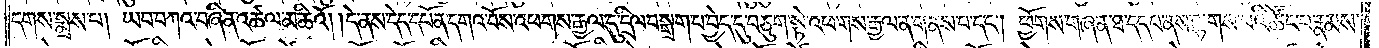དགས་སྨྲས་པ། ཡབ་བཀའ་བཞིན་འཚལ་མཆིའོ། །དེ་ནས་དེད་དཔོན་དགའ་བོས་འཕགས་རྒྱལ་དུ་དྲིལ་བསྒྲག་པ་བྱེད་དུ་བཅུག་སྟེ་འཕགས་རྒྱལ་ན་གནས་པ་དང༌། ཕྱོགས་གཞན་ཐ་དད་པ་ནས་ལྷགས་པའི་ཚོང་པ་རྣམས་
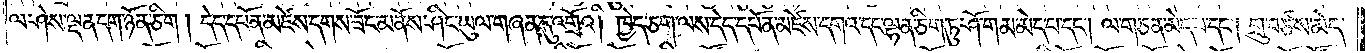ལ་ཤེས་ལྡན་དག་ཉོན་ཅིག །དེད་དཔོན་མཛེས་དགས་ཟོང་མནོས་ཤིང་ཡུལ་གཞན་དུ་འགྲོའི། ཁྱེད་ཅག་ལས་དེད་དཔོན་མཛེས་དགའ་དང་ལྷན་ཅིག་ཏུ་ཤོ་གམ་མེད་པ་དང༌། ལ་གཅན་མེད་པ་དང༌། གྲུ་བཙས་མེད་
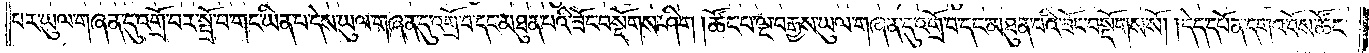པར་ཡུལ་གཞན་དུ་འགྲོ་བར་སྤྲོ་བ་གང་ཡིན་པ་དེས་ཡུལ་གཞན་དུ་འགྲོ་བ་དང་མཐུན་པའི་ཟོང་བསྡོགས་ཤིག །ཚོང་པ་ལྔ་བརྒྱས་ཡུལ་གཞན་དུ་འགྲོ་བ་དང་མཐུན་པའི་ཟོང་བསྡོགས་སོ། །དེད་དཔོན་དགའ་བོས་ཚོང་
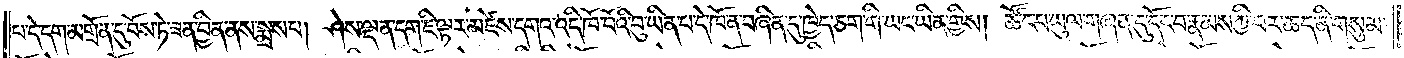པ་དེ་དག་མགྲོན་དུ་བོས་ཏེ་ཟན་བྱིན་ནས་སྨྲས་པ། ཤེས་ལྡན་དག་ཇི་ལྟར་མཛེས་དགའ་འདི་ཁོ་བོའི་བུ་ཡིན་པ་དེ་ཁོ་ན་བཞིན་དུ་ཁྱེད་ཅག་གི་ཡང་ཡིན་གྱིས། ཚོང་པ་ཡུལ་གཞན་དུ་དོང་བ་རྣམས་ཀྱི་བར་ཆད་ནི་གསུམ་
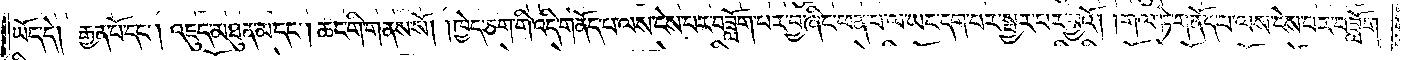ཡོད་དེ། རྒྱན་པོ་དང༌། འཇུད་མཐུན་མ་དང༌། ཆང་གི་གནས་སོ། །ཁྱེད་ཅག་གི་འདི་གནོད་པ་ལས་ངེས་པར་བཟློག་པར་བྱ་ཞིང་ཕན་པ་ལ་ཡང་དག་པར་སྦྱར་བར་བྱའོ། གལ་ཏེ་གནོད་པ་ལས་ངེས་པར་བཟློག་
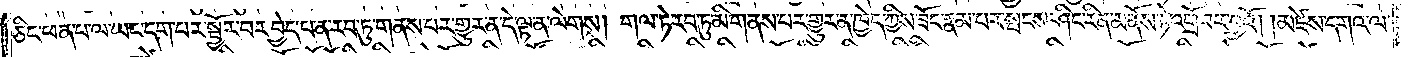ཅིང་ཕན་པ་ལ་ཡང་དག་པར་སྦྱོར་བར་བྱེད་པ་ན་རབ་ཏུ་གནས་པར་གྱུར་ན་དེ་ལྟ་ན་ལེགས། གལ་ཏེ་རབ་ཏུ་མི་གནས་པར་གྱུར་ན་ཁྱེད་ཀྱིས་ཟོང་རྣམ་པར་སྤངས་ཤིང་རིན་མནོས་ཏེ་འགྲོ་བར་བྱའོ། །མཛེས་དགའ་ལ་
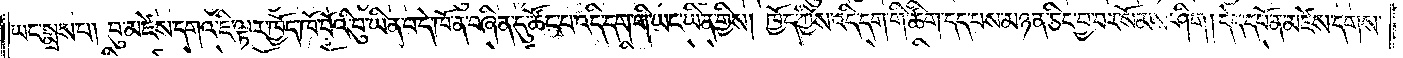ཡང་སྨྲས་པ། བུ་མཛེས་དགའ་ཇི་ལྟར་ཁྱོད་ཁོ་བོའི་བུ་ཡིན་པ་དེ་ཁོ་ན་བཞིན་དུ་ཚོང་པ་འདི་དག་གི་ཡང་ཡིན་གྱིས། ཁྱོད་ཀྱིས་འདི་དག་གི་ཚིག་དད་པས་མཉན་ཅིང་བྱ་བར་སོམས་ཤིག །དེད་དཔོན་མཛེས་དགས་
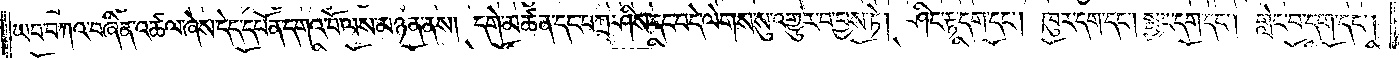ཡབ་བཀའ་བཞིན་འཚལ་ཞེས་དེད་དཔོན་དགའ་བོ་ལས་མཉན་ནས། དགེ་མཚན་དང་བཀྲ་ཤིས་དང་བདེ་ལེགས་སུ་འགྱུར་བ་བྱས་ཏེ། ཤིང་རྟ་དག་དང༌། ཁུར་དག་དང༌། སྦྱང་དག་དང༌། གླེང་བ་དག་དང༌།
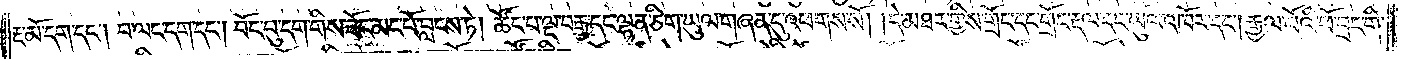རྔ་མོ་དག་དང༌། བ་ལང་དག་དང༌། བོང་བུ་དག་གིས་ཟོང་མང་པོ་བླངས་ཏེ། ཚོང་པ་ལྔ་བརྒྱ་དང་ལྷན་ཅིག་ཡུལ་གཞན་དུ་འཕགས་སོ། །དེ་མཐར་གྱིས་གྲོང་དང་གྲོང་རྡལ་དང་ཡུལ་འཁོར་དང༌། རྒྱལ་པོའི་ཕོ་བྲང་གི་
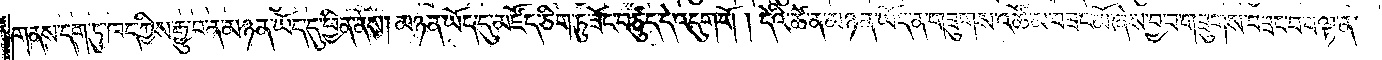གནས་དག་ཏུ་ཁད་ཀྱིས་རྒྱུ་བ་ན་མཉན་ཡོད་དུ་ཕྱིན་ནས། མཉན་ཡོད་དུ་མཛོད་ཅིག་ཏུ་ཟོང་བཙུད་དེ་འདུག་གོ །དེའི་ཚེ་ན་མཉན་ཡོད་ན་གཟུགས་འཚོ་མ་བཟང་མོ་ཞེས་བྱ་བ་གཟུགས་བཟང་བ་བལྟ་ན་
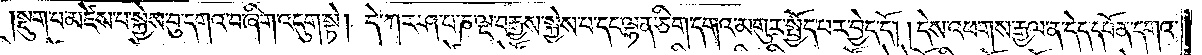སྡུག་པ་མཛེས་པ་སྐྱེས་བུ་དགའ་བ་ཞིག་འདུག་སྟེ། དེ་ཀར་ཤ་པ་ཎ་ལྔ་བརྒྱས་སྐྱེས་པ་དང་ལྷན་ཅིག་དགའ་མགུར་སྤྱོད་པར་བྱེད་དོ། །དེས་འཕགས་རྒྱལ་ན་དེད་དཔོན་དགའ་
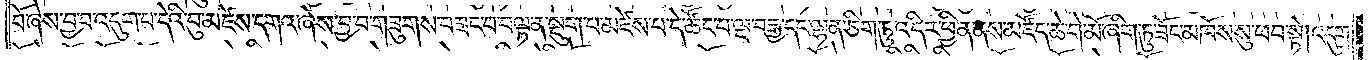བོ་ཞེས་བྱ་བ་འདུག་པ་དེའི་བུ་མཛེས་དགའ་ཞེས་བྱ་བ་གཟུགས་བཟང་བ་བལྟ་ན་སྡུག་པ་མཛེས་པ་དེ་ཚོང་པ་ལྔ་བརྒྱ་དང་ལྷན་ཅིག་ཏུ་འདིར་ཕྱིན་ནས་མཛོད་ཆེ་གེ་མོ་ཞིག་ཏུ་ཟོང་མཁོས་སུ་ཕབ་སྟེ། འདུག་
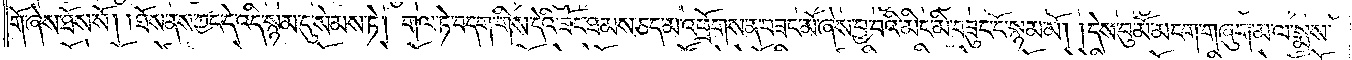གོ་ཞེས་ཐོས་སོ། །ཐོས་ནས་ཀྱང་དེ་འདི་སྙམ་དུ་སེམས་ཏེ། གལ་ཏེ་བདག་གིས་དེའི་ཟོང་ཐམས་ཅད་མ་འཕྲོགས་ན་བཟང་མོ་ཞེས་བྱ་བའི་མིང་མི་བཟུང་ངོ་སྙམ་མོ། །དེས་བུ་མོ་མངག་གཞུག་མ་ལ་སྨྲས་
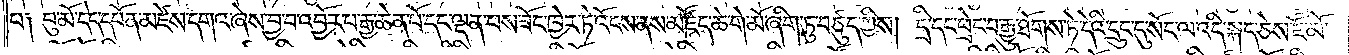པ༑ བུ་མོ་དེད་དཔོན་མཛེས་དགའ་ཞེས་བྱ་བ་འབྱོར་པ་རྒྱ་ཆེན་པོ་དང་ལྡན་པས་ཟོང་ཁྱེར་ཏེ་འོངས་ནས་མཛོད་ཆེ་གེ་མོ་ཞིག་ཏུ་བཙུད་ཀྱིས། དྲི་དང་ཕྲེང་བ་རྒྱུ་ཐོགས་ཏེ་དེའི་དྲུང་དུ་སོང་ལ་འདི་སྐད་ཅེས་ཇོ་མོ་
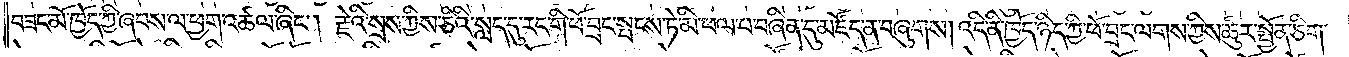བཟང་མོ་ཁྱོད་ཀྱི་ཞབས་ལ་ཕྱག་འཚལ་ཞིང༌། རྗེའི་སྲས་ཀྱིས་ཅིའི་སླད་དུ་རང་གི་ཕོ་བྲང་སྤངས་ཏེ་མི་ཕལ་བ་བཞིན་དུ་མཛོད་ན་བཞུགས། འདི་ནི་ཁྱོད་ཉིད་ཀྱི་ཕོ་བྲང་ལགས་ཀྱིས་ཚུར་སྤྱོན་ཅིག་
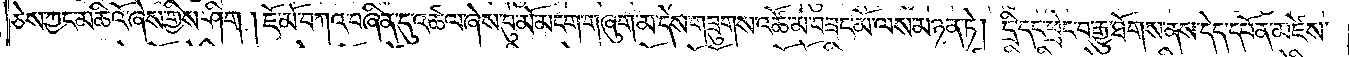ཅེས་ཀྱང་མཆིའོ་ཞེས་གྱིས་ཤིག །ཇོ་མོ་བཀའ་བཞིན་དུ་འཚལ་ཞེས་བུ་མོ་མངག་གཞུག་མ་དེས་གཟུགས་འཚོ་མ་བཟང་མོ་ལས་མཉན་ཏེ། དྲི་དང་ཕྲེང་བ་རྒྱུ་ཐོགས་ནས་དེད་དཔོན་མཛེས་
